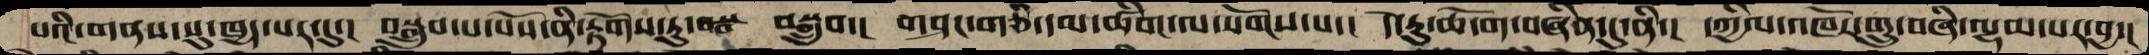པའི་གནས་སུ་ཁྱད་པར་དུ་།  བསྒྲུབ་པ་པོས་ནི་རྟོགས་ཏུ་   བསྒྲུབ་།  གཤང་གཅི་དམ་ཚིག་ལ་སོགས་པ་།  དེ་རུ་ཆོ་ག་བཞིན་དུ་ནི་།  དཀྱིལ་འཁོར་གྲུ་བཞི་ལྷམ་པར་བྱ་།
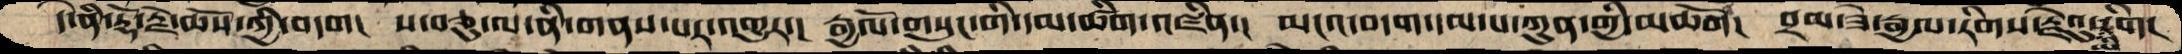དེ་ནི་རྡོ་རྗེ་ཆོས་ཀྱི་བདག་།  ས་བཅུ་ལ་ནི་གནས་པར་འགྱུར་།  རྒྱལོ་གསུང་གི་དམ་ཆིག་འཛིན་།  མངའ་བདག་དམ་པ་ཀུན་གྱི་མཆོག།  བྲམ་ཟེ་རྒྱལ་རིགས་རྗེའུ་རིག།
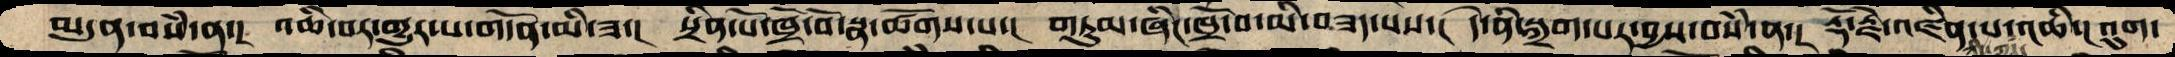མདུན་བསཾ་ན་།  འཆི་པར་གྱུར་པ་གདོན་མི་ཟ་།  སྲིན་པོ་ཁྲོ་བོ་སྣ་ཚོགས་པ་།  གཏུམ་ཞིང་ཁྲོ་བ་མི་བཟད་པས་།  དེ་ནི་སྐྲག་པར་བྱས་བསཾ་ན་།  རྡོ་རྗེ་འཛིན་པ་ཉིད་ཀྱི་འཆི་།  འུག་
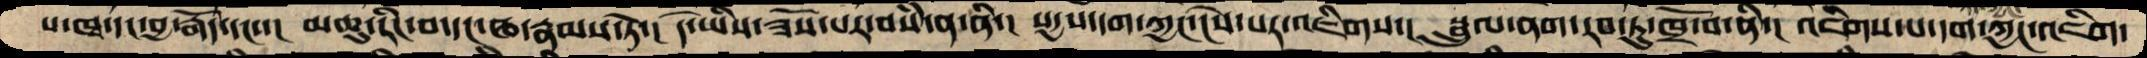པ་ཁྭ་དང་བྱ་རྒོད་དང་་།  མཆུ་རིང་བ་དང་ཝ་རྣམས་ཏེ་།  དེ་ཡིས་ཟོས་པར་བསཾ་ན་ནི་།  སདྱས་དག་ཀྱང་ངེས་པར་འཇིགས་།  སྦྲུལ་ནག་རབ་ཏུ་ཁྲོས་པ་ནི་།  འཇིགས་པ་དག་ཀྱང་འཇིག་
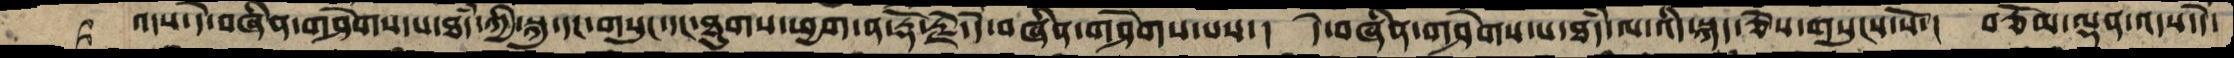འདས་དེ་བཞིན་གཤེགས་པ་ཐཾད་ཀྱི་སྐུ་དང་གསུང་དང་ཐུགས་ཕྱག་ན་རྡོ་རྗེ་དེ་བཞིན་གཤེགས་པས་། དེ་བཞིན་གཤེགས་པ་ཐཾད་ལ་འདི་སྐད་ཅེས་གསུངས་སོ་།  བཅོམ་ལྡན་འདས་དེ་
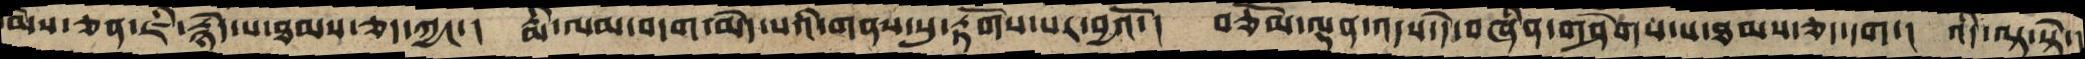ཡཻས་ཅན་ཇི་རྙེད་པ་ཐམས་ཅད་ཀྱང་། རྨི་ལམ་བདག་མེད་པའི་གནས་སུ་རྟོགས་པར་བྱའོ་། བཅོམ་ལྡན་འདས་དེ་བཞིན་གཤེགས་པ་ཐམས་ཅད་དག་། འདི་ལྟ་སྟེ་
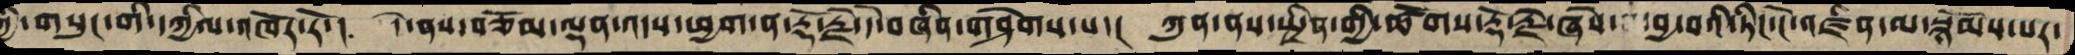ཀྱི་གསུང་གི་དཀྱིལ་འཁོར་རོ་།  དེ་ནས་བཅོམ་ལྡན་འདས་ཕྱག་ན་རྡོ་རྗེ་དེ་བཞིན་གཤེགས་པ་། ཀུན་ནས་སྤྲིན་གྱི་ཚོགས་རྡོ་རྗེ་ཞེས་བྱ་བའི་ཏིང་ངེ་འཛིན་ལ་སྙོམས་པར་
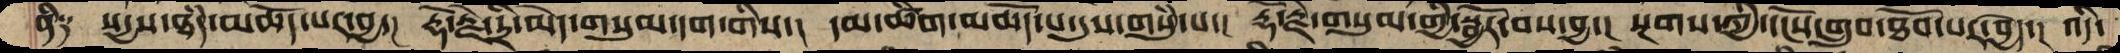ནི༑   སདྱས་ཐདཾ་མཆོད་པར་བྱ་།  རྡོ་རྗེ་དྲི་མེད་གསུམ་དག་གིས་།  དམ་ཚིག་མཆོད་པ་དུས་གསུཾ་པ་།  རྡོ་རྗེ་གསུམ་གྱི་སྦྱོར་བས་བྱ་།  སྔགས་ཀྱི་དངོས་གྲུབ་ཐོབ་པར་བྱེད་།  འདི་
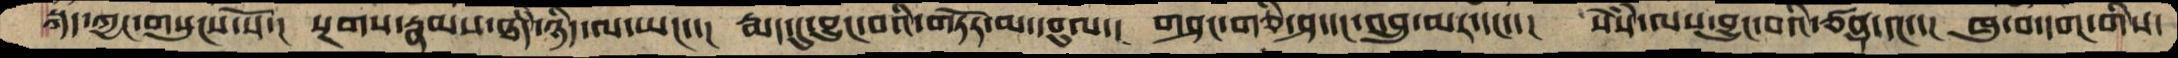སྐད་ཀྱང་གསུངས་སོ་།  སྔགས་རྣམས་ཐདཾ་ཉིད་ལ་ཡང་་།  རྨད་དུ་བྱུང་བའི་གཏོར་མ་དབུལ་།  གཤང་གཅི་ཤ་དང་འབྲུ་མར་དང་་།  སེཾས་ལས་བྱུང་བའི་ཙནྡ་དང་་།  ཁུ་བ་དག་གིས་
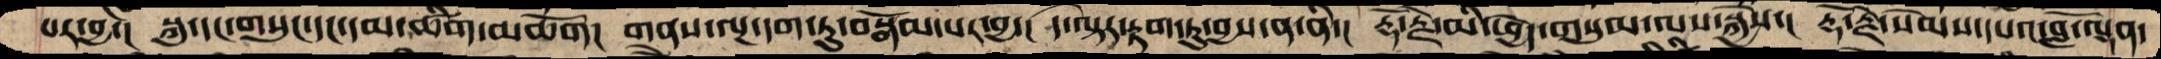པར་བྱ་།  སྐུ་དང་གསུང་དང་དམ་ཚིག་མཆོག།  གནས་ལྔ་དག་ཏུ་བསྒོམ་པར་བྱ་།  དེ་ལྟར་རྟག་ཏུ་བྱས་ན་ནི་།  རྡོ་རྗེ་མི་ཕྱེད་གསུམ་ལས་སྐྱེས་།  རྡོ་རྗེ་སེམས་དཔའ་བློ་ལྡན་
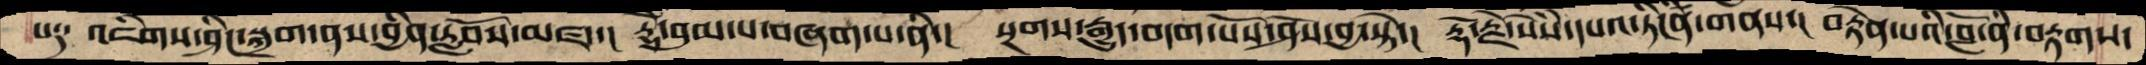པ༑  འཇིགས་ཤིང་སྐྲག་ནས་བྱིན་རློབས་མཛད་།  རྡོེ་བུམ་པ་བཞག་པ་ནི་།  སྔགས་རྒྱུད་བདག་པོས་ཤེས་བྱ་སྟེ་།  རྡོ་རྗེ་སེཾས་དཔའ་ཏིངཛིན་གནས་།  བརྟེན་པའི་བློ་ནི་བརྟགས་
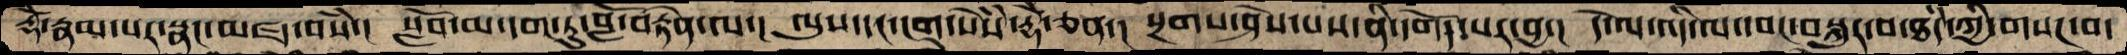རྡོེ་རྣམ་པར་སྣང་མཛད་བསཾ་།  སློབ་མ་དག་ཏུ་བློ་བརྟེན་ལ་།  ལུས་དང་ངག་སེཾས་རྡོེ་ཅན་།  སྔགས་ཤེས་པས་ནི་དགོད་པར་བྱ་།  དེ་ལ་འདི་ལ་དབང་བསྐུར་བ་ཐདཾ་ཀྱི་གསང་བ་
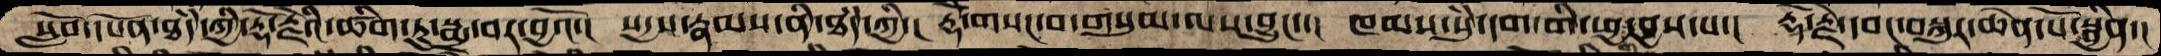སློབ་དཔོན་ཐཾད་ཀྱི་རྡོ་རྗེའི་ཚིག་ཏུ་སྨྲ་བར་བྱའོ་།  སདྱས་རྣམས་ནི་ཐཾད་ཀྱི་། རྡོེ་གསང་བ་གསུམ་ལས་བྱུང་་། ཁམས་སུཾ་དག་གི་ཕྱག་བྱས་པ་། རྡོ་རྗེ་དབང་བསྐུར་ཆེན་པོ་སྦྱིན་།
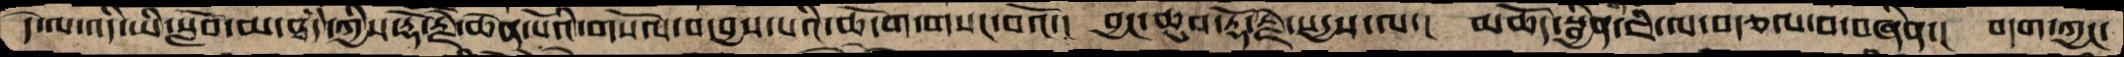དེ་ལ་འདི་ཡི་སློབ་མ་ཐཾད་ཀྱིས་རྡོ་རྗེ་ཆེན་པོའི་གསོལ་བ་བྱས་པའི་ཆོ་ག་གསང་བའོ་།  བྱང་ཆུབ་རྡོ་རྗེ་སདྱས་ལ་། མཆོད་སྦྱིན་ཇི་ལ་བརྩལ་བ་བཞིན་། བདག་ཀྱང་
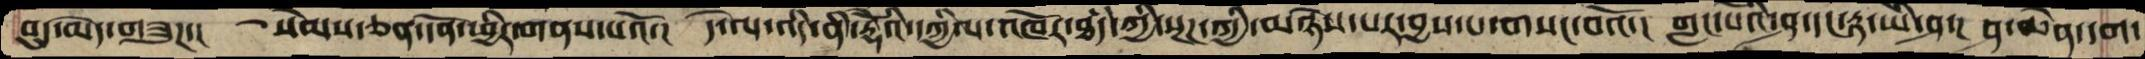བུད་མེད་གཟུཌ་།  སེམས་ཅན་དོན་ཕྱིར་གནས་པའོ་།  དེ་ལ་འདི་ནི་རྡོེའི་དཀྱིལ་འཁོར་ཐཾད་ཀྱི་སྔཌ་ཀྱི་མཉེས་པར་བྱས་པ་གསང་བའོ་།  གླང་པོའི་ཤ་དང་རྟ་ཡི་ཤ་།  ཤ་ཆེན་དག་
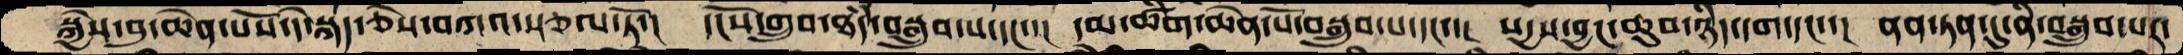སྐྱེས་བུ་ཆེན་པོས་དེ་སྐད་ཅེས་བཀའ་སྩལ་ཏོ་།  དངོས་གྲུབ་ཐཾད་བསྒྲུབ་པ་དང་་།  དམ་ཚིག་ཆེན་པོ་བསྒྲུབ་པ་དང་་།  སདྱས་བྱང་ཆུབ་ཉིད་དག་དང་་།  ནན་ཏན་དུ་ནི་བསྒྲུབ་པར་
